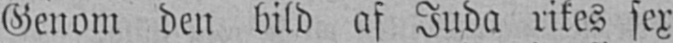Genom den bild af Juda rikes sex
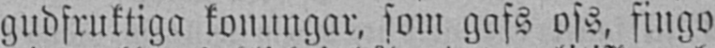gudfruktiga konungar, som gafs oss, fingo
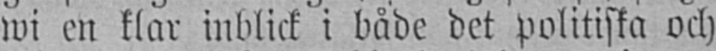wi en klar inblick i både det politiska och
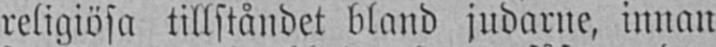religiösa tillståndet bland judarne, innan
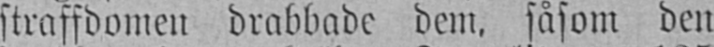straffdomen drabbade dem, såsom den
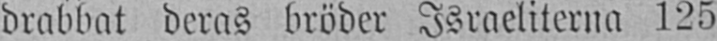drabbat deras bröder Israeliterna 125
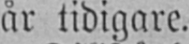år tidigare.
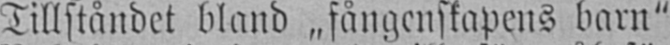Tillståndet bland „fångenskapens barn"
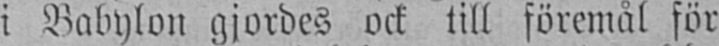i Babylon gjordes ock till föremål för
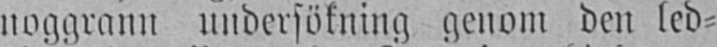noggrann undersökning genom den led-
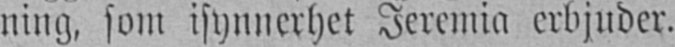ning, som isynnerhet Jeremia erbjuder.
